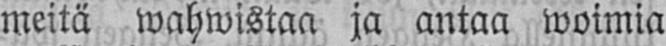meitä wahwistaa ja antaa woimia
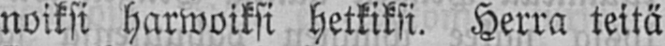noiksi harwoiksi hetkiksi. Herra teitä
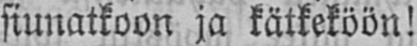siunatkoon ja kätkeköön!
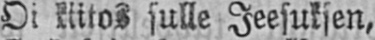Oi kiitos sulle Jeesuksen,
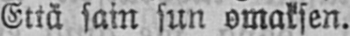Että sain sun omaksen.
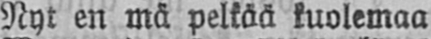Nyt en mä pelkää kuolemaa
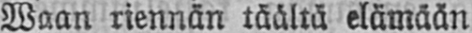Waan riennän täällä elämään
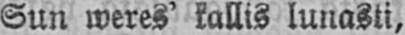Sun weres' kallis lunasti,
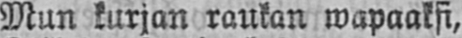Mun kurjan raukan wapaaksi,
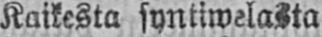Kaikesta syntiwelasta
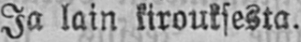Ja lain kirouksesta.
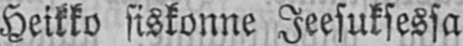Heikko siskonne Jeesuksessa
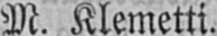M. Klemetti.
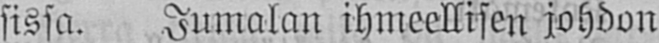sissa. Jumalan ihmeellisen johdon
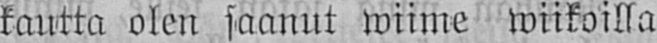kautta olen saanut wiime wiikoilla
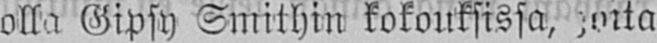olla Gipsy Smithin kokouksissa, joita
